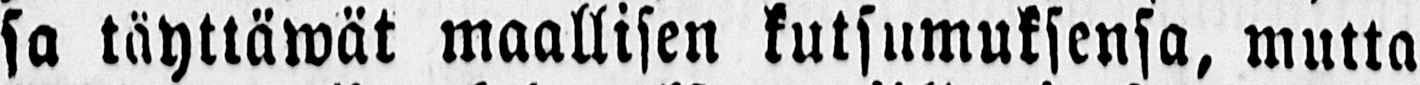sa täyttäwät maallisen kutsumuksensa, mutta
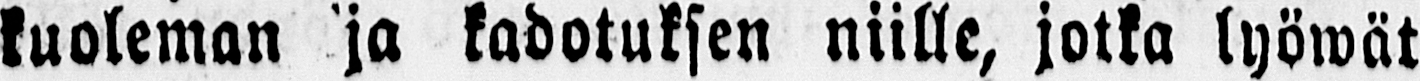kuoleman ja kadotuksen niille, jotka lyöwät
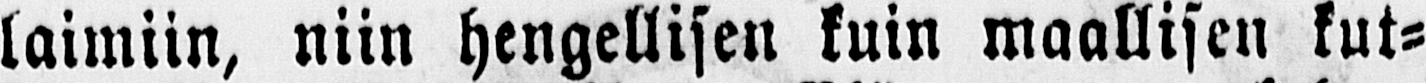laimiin, niin hengellisen kuin maallisen kut-
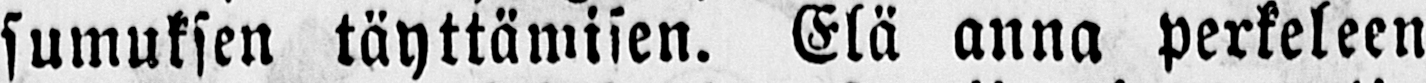sumuksen täyttämisen. Elä anna perkeleen
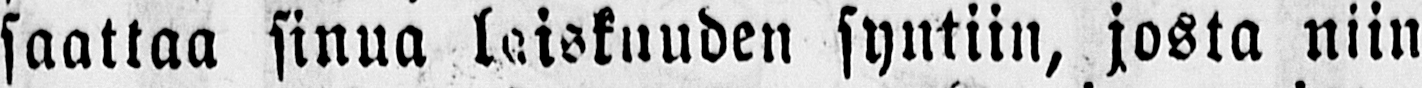saattaa sinua laiskuuden syntiin, josta niin
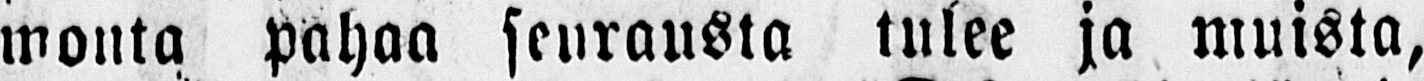monta pahaa seurausta tulee ja muista,
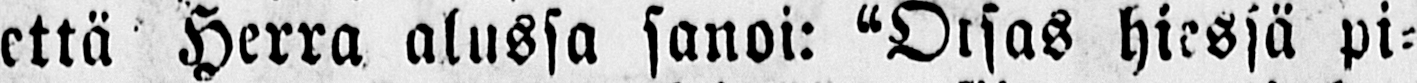että Herra alussa sanoi: “Otsas hiessä pi-
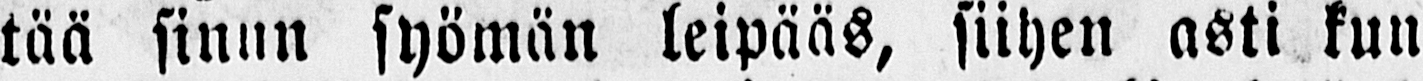tää sinun syömän leipääs, siihen asti kun
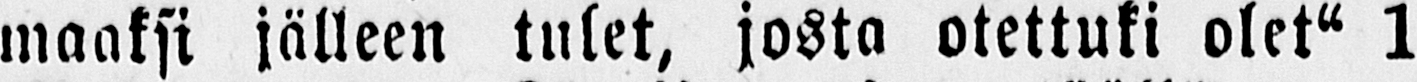maaksi jälleen tulet, josta otettuki olet“ 1
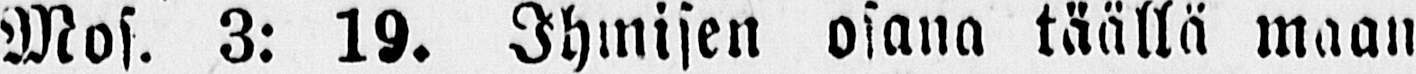Mos. 3: 19. Ihmisen osana täällä maan
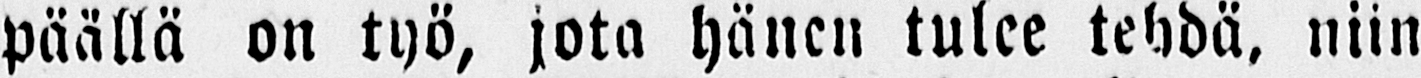päällä on työ, jota hänen tulee tehdä, niin
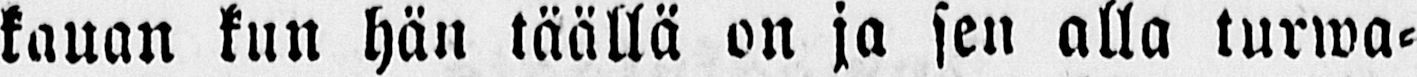kauan kun hän täällä on ja sen alla turwa-
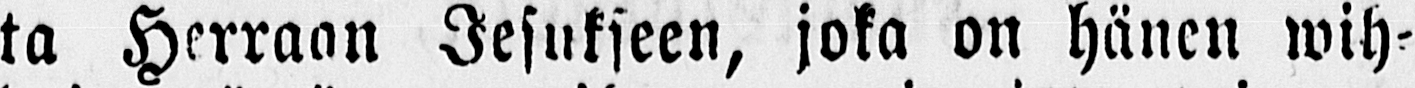ta Herraan Jesukseen, joka on hänen wih-
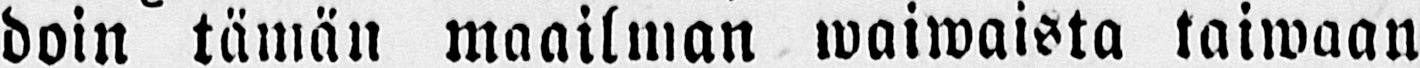doin tämän maailman waiwaista taiwaan
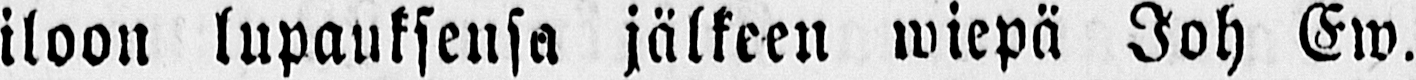iloon lupauksensa jälkeen wiepä Joh Ew.
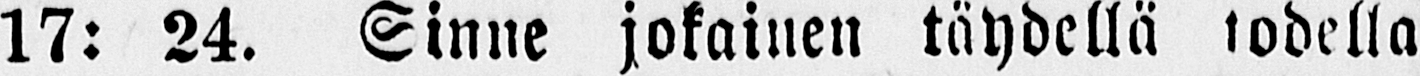17: 24. Sinne jokainen täydellä todella
